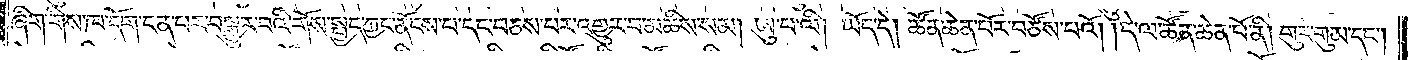ཞིག་གིས་ཁ་དོག་ངན་པར་བསྒྱུར་བའི་གོས་སྤྱད་ཀྱང་ནོངས་པ་དང་བཅས་པར་འགྱུར་བ་མཆིས་སམ། ཨུ་པ་ལི། ཡོད་དེ། ཚོན་ཆེན་པོར་བཙོས་པའོ། །དེ་ལ་ཚོན་ཆེན་པོ་ནི། གུར་གུམ་དང༌།
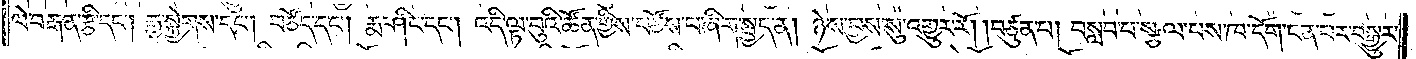ལེ་བརྒན་རྩི་དང༌། རྒྱ་སྐྱེགས་དང༌། བཙོད་དང༌། རྨ་ཤིང་དང༌། འདི་ལྟ་བུའི་ཚོན་གྱིས་བཙོས་པ་ཞིག་སྤྱད་ན། ཉེས་བྱས་སུ་འགྱུར་རོ། །བཙུན་པ། བསླབ་པ་སྩལ་པས་ཁ་དོག་ངན་པར་བསྒྱུར་
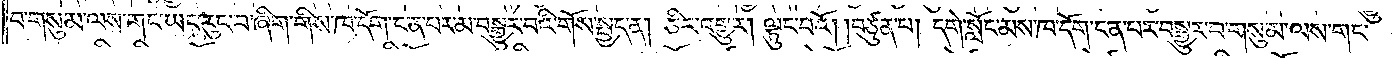བ་གསུམ་ལས་གང་ཡང་རུང་བ་ཞིག་གིས་ཁ་དོག་ངན་པར་མ་བསྒྱུར་བའི་གོས་སྤྱད་ན། ཅིར་འགྱུར། ལྟུང་བའོ། །བཙུན་པ། དགེ་སློང་མས་ཁ་དོག་ངན་པར་བསྒྱུར་བ་གསུམ་ལས་གང་
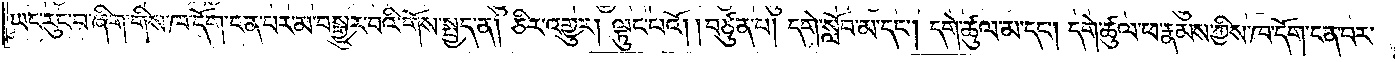ཡང་རུང་བ་ཞིག་གིས་ཁ་དོག་ངན་པར་མ་བསྒྱུར་བའི་གོས་སྤྱད་ན། ཅིར་འགྱུར། ལྟུང་བའོ། །བཙུན་པ། དགེ་སློབ་མ་དང༌། དགེ་ཚུལ་མ་དང༌། དགེ་ཚུལ་ཕ་རྣམས་ཀྱིས་ཁ་དོག་ངན་པར་
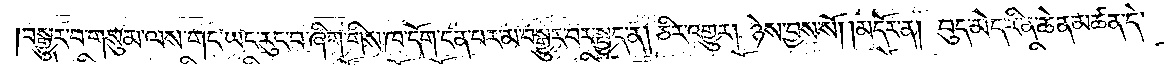།བསྒྱུར་བ་གསུམ་ལས་གང་ཡང་རུང་བ་ཞིག་གིས་ཁ་དོག་ངན་པར་མ་བསྒྱུར་བར་སྤྱད་ན། ཅིར་འགྱུར། ཉེས་བྱས་སོ།    །མདོར་ན། བུད་མེད་རིན་ཆེན་མཚན་དེ་
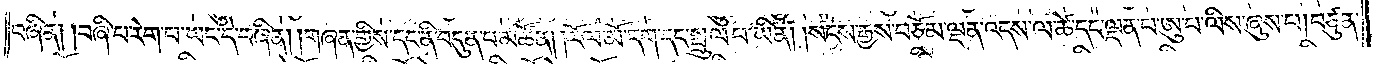བཞིན། །བཞི་པ་རེག་པ་ཡང་དེ་བཞིན། །གཞན་གྱིས་དང་ནི་བདུན་པ་མཚོན། །རོལ་མོ་དག་དང་སྤྲུལ་པ་ཡིན། །སངས་རྒྱས་བཅོམ་ལྡན་འདས་ལ་ཚེ་དང་ལྡན་པ་ཨུ་པ་ལིས་ཞུས་པ། བཙུན་
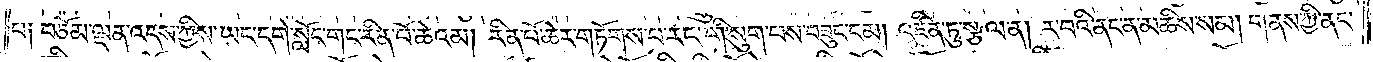པ༑ བཅོམ་ལྡན་འདས་ཀྱིས་ཡང་དགེ་སློང་གང་རིན་པོ་ཆེའམ། རིན་པོ་ཆེར་གཏོགས་པ་རང་གི་སུག་པས་བཟུང་ངམ། འཛིན་ཏུ་སྩལ་ན། ར་བའི་ནང་ན་མཆིས་སམ། གནས་ཀྱི་ནང་
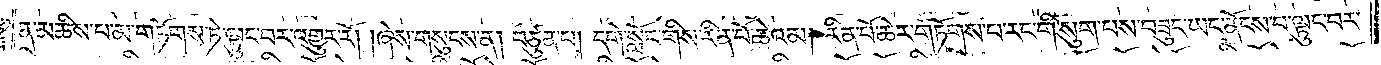ན་མཆིས་པ་མ་གཏོགས་ཏེ་ལྟུང་བར་འགྱུར་རོ། །ཞེས་གསུངས་ན། བཙུན་པ། དགེ་སློང་གིས་རིན་པོ་ཆེའམ། རིན་པོ་ཆེར་གཏོགས་པ་རང་གི་སུག་པས་བཟུང་ཡང་ནོངས་པ་ལྟུང་བར་
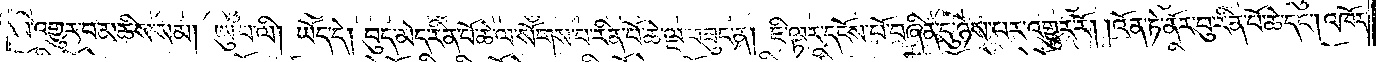མི་འགྱུར་བ་མཆིས་སམ། ཨུ་པ་ལི། ཡོད་དེ། བུད་མེད་རིན་པོ་ཆེ་ལ་སོགས་པ་རིན་པོ་ཆེ་ལྔ་བཟུང་ན། ཇི་ལྟར་དངོས་པོ་བཞིན་དུ་ཉེས་པར་འགྱུར་རོ། །འོན་ཏེ་ནོར་བུ་རིན་པོ་ཆེ་དང༌། འཁོར་
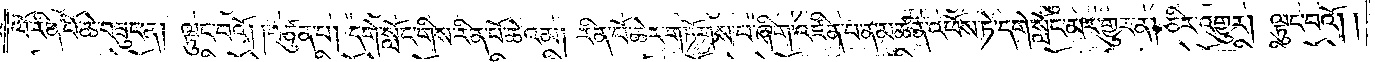ལོ་རིན་པོ་ཆེ་བཟུང་ན། ལྟུང་བའོ། །བཙུན་པ། དགེ་སློང་གིས་རིན་པོ་ཆེའམ། རིན་པོ་ཆེར་གཏོགས་པ་ཞིག་འཛིན་པ་ན་མཚན་འཕོས་ཏེ་དགེ་སློང་མར་གྱུར་ན། ཅིར་འགྱུར། ལྟུང་བའོ། །
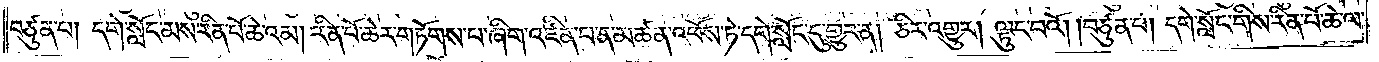བཙུན་པ། དགེ་སློང་མས་རིན་པོ་ཆེའམ། རིན་པོ་ཆེར་གཏོགས་པ་ཞིག་འཛིན་པ་ན་མཚན་འཕོས་ཏེ་དགེ་སློང་དུ་གྱུར་ན། ཅིར་འགྱུར། ལྟུང་བའོ། །བཙུན་པ། དགེ་སློང་གིས་རིན་པོ་ཆེ་ལ་
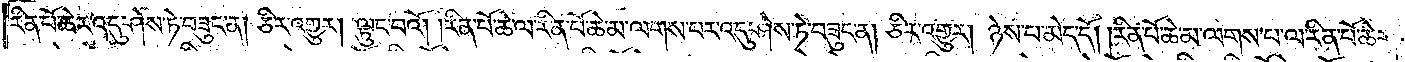རིན་པོ་ཆེར་འདུ་ཤེས་ཏེ་བཟུང་ན། ཅིར་འགྱུར། ལྟུང་བའོ། །རིན་པོ་ཆེ་ལ་རིན་པོ་ཆེ་མ་ལགས་པར་འདུ་ཤེས་ཏེ་བཟུང་ན། ཅིར་འགྱུར། ཉེས་པ་མེད་དོ། །རིན་པོ་ཆེ་མ་ལགས་པ་ལ་རིན་པོ་ཆེར་
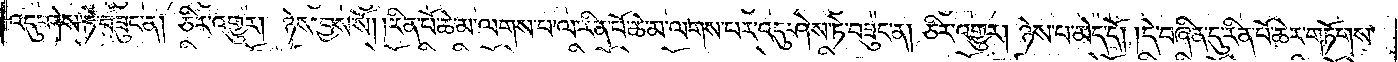འདུ་ཤེས་ཏེ་བཟུང་ན། ཅིར་འགྱུར། ཉེས་བྱས་སོ། །རིན་པོ་ཆེ་མ་ལགས་པ་ལ་རིན་པོ་ཆེ་མ་ལགས་པར་འདུ་ཤེས་ཏེ་བཟུང་ན། ཅིར་འགྱུར། ཉེས་པ་མེད་དོ། །དེ་བཞིན་དུ་རིན་པོ་ཆེར་གཏོགས་
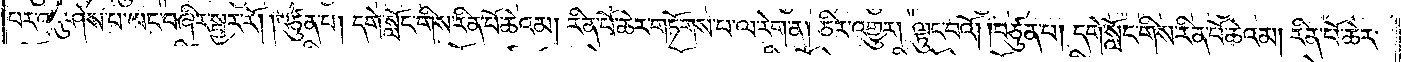པར་འདུ་ཤེས་པ་ཡང་བཞིར་སྦྱར་རོ། །བཙུན་པ། དགེ་སློང་གིས་རིན་པོ་ཆེའམ། རིན་པོ་ཆེར་གཏོགས་པ་ལ་རེག་ན། ཅིར་འགྱུར། ལྟུང་བའོ། །བཙུན་པ། དགེ་སློང་གིས་རིན་པོ་ཆེའམ། རིན་པོ་ཆེར་
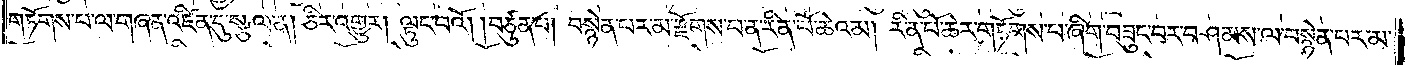གཏོགས་པ་ལ་གཞན་འཛིན་དུ་སྩལ་ན། ཅིར་འགྱུར། ལྟུང་བའོ། །བཙུན་པ། བསྙེན་པར་མ་རྫོགས་པ་ན་རིན་པོ་ཆེའམ། རིན་པོ་ཆེར་གཏོགས་པ་ཞིག་བཟུང་བར་བཤམས་ལ་བསྙེན་པར་མ་
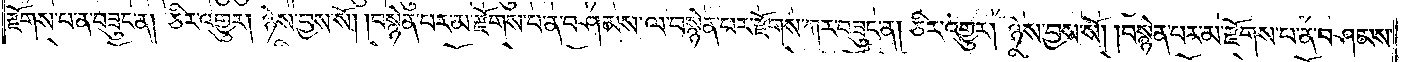རྫོགས་པ་ན་བཟུང་ན། ཅིར་འགྱུར། ཉེས་བྱས་སོ། །བསྙེན་པར་མ་རྫོགས་པ་ན་བཤམས་ལ་བསྙེན་པར་རྫོགས་ཀར་བཟུང་ན། ཅིར་འགྱུར། ཉེས་བྱས་སོ། །བསྙེན་པར་མ་རྫོགས་པ་ན་བཤམས་
